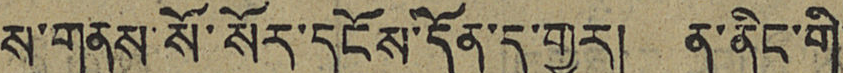ས་གནས་སོ་སོར་དངོས་དོན་དུ་གྱུར། ན་ནིང་གི་
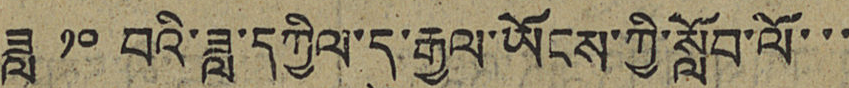ཟླ ༡༠ བའི་ཟླ་དཀྱིལ་དུ་རྒྱལ་ཡོངས་ཀྱི་སློབ་ལོ་་་
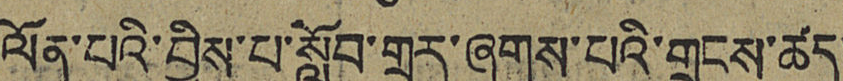ལོན་པའི་བྱིས་པ་སློབ་གྲྭར་ཞུགས་པའི་གྲངས་ཚད་
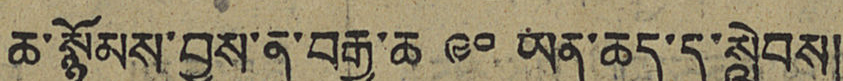ཆ་སྙོམས་བྱས་ན་བརྒྱ་ཆ ༩༠ ཡན་ཆད་དུ་སླེབས།
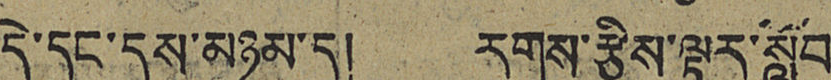དེ་དང་དུས་མ་མཉམ་དུ། རགས་རྩིས་ལྟར་སློབ་
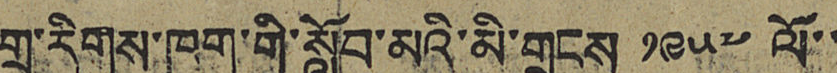གྲྭ་རིགས་ཁག་གི་སློབ་མའི་མི་གྲངས ༡༩༥༧ ལོ་་
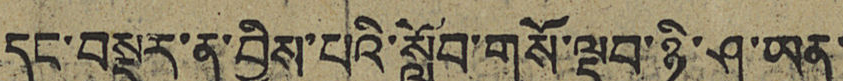དང་བསྡུར་ན་བྱིས་པའི་སློབ་གསོ་ལྡབ་ཉི་ཤུ་ཡན་
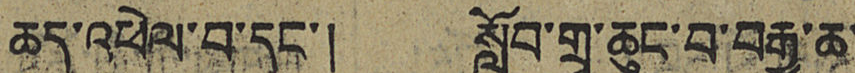ཆད་འཕེལ་བ་དང་། སློབ་གྲྭ་ཆུང་བ་བརྒྱ་ཆ་
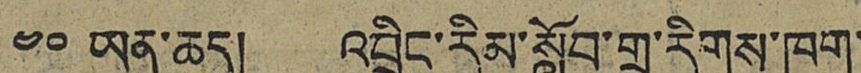༤༠ ཡན་ཆད། འབྲིང་རིམ་སློབ་གྲྭ་རིགས་ཁག་
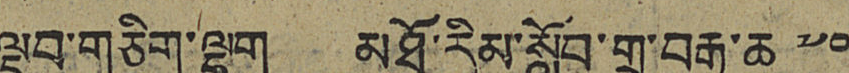ལྡབ་གཅིག་ལྷག མཐོ་རིམ་སློབ་གྲྭ་བརྒྱ་ཆ ༧༠
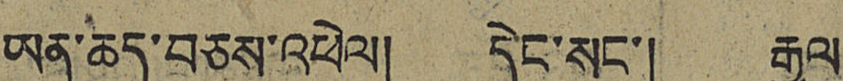ཡན་ཆད་བཅས་འཕེལ། དེང་སང་། རྒྱལ་
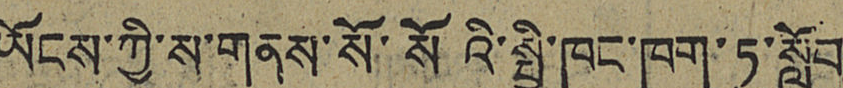ཡོངས་ཀྱི་ས་གནས་སོ་སོའི་སྤྱི་ཁང་ཁག་ཏུ་སློབ
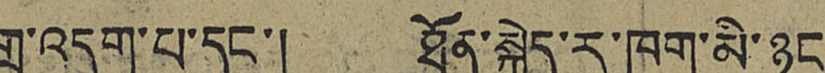གྲྭ་འདུག་པ་དང་། ཐོན་སྐྱེད་རུ་ཁག་མི་ཉུང་
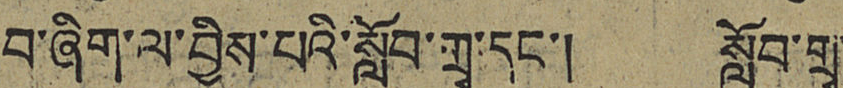བ་ཞིག་ལ་བྱིས་པའི་སློབ་གྲྭ་དང་། སློབ་གྲྭ་
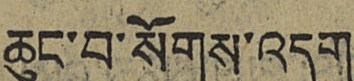ཆུང་བ་སོགས་འདུག
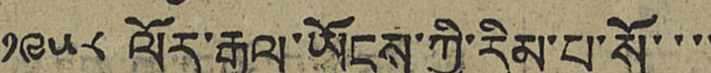༡༩༥༨ ལོར་རྒྱལ་ཡོངས་ཀྱི་རིམ་པ་སོ་་་་
